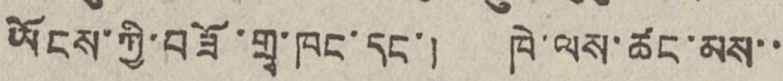ཡོངས་ཀྱི་བཟོ་གྲྭ་ཁང་དང་། ཁེ་ལས་ཚང་མས་་
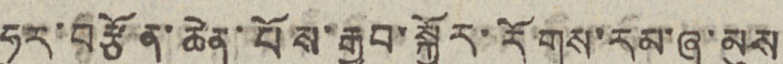ཧུར་བརྩོན་ཆེན་པོས་རྒྱབ་སྐྱོར་རོགས་རམ་ཞུ་མུས
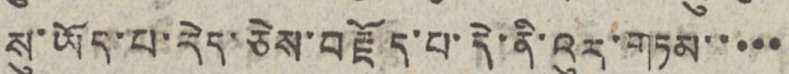སུ་ཡོད་པ་རེད་ཅེས་བརྗོད་པ་དེ་ནི་འུར་གཏམ་་་་་
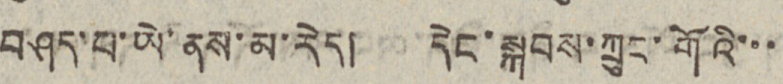བཤད་པ་ཡེ་ནས་མ་རེད། དེང་སྐབས་ཀྲུང་གོའི་་་
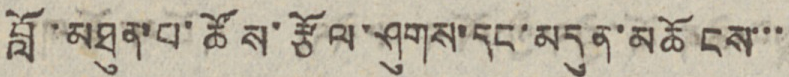བློ་མཐུན་པ་ཚོས་རྩོལ་ཤུགས་དང་མདུན་མཆོངས་་་
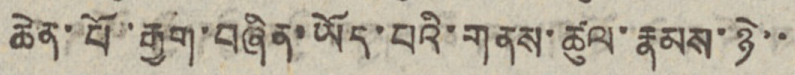ཆེན་པོ་རྒྱག་བཞིན་ཡོད་པའི་གནས་ཚུལ་རྣམས་ཉེ་་
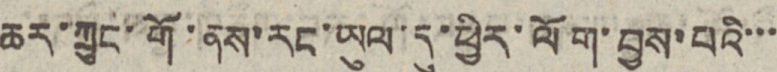ཆར་ཀྲུང་གོ་ནས་རང་ཡུལ་དུ་ཕྱིར་ལོག་བྱས་པའི་་་
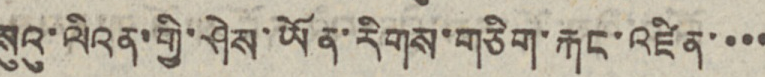སུའུ་ལིའན་གྱི་ཤེས་ཡོན་རིགས་གཅིག་རྐང་འཛིན་་་་
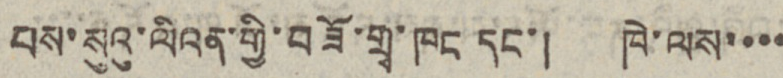པས་སུའུ་ལིའན་གྱི་བཟོ་གྲྭ་ཁང དང་། ཁེ་ལས་་་་
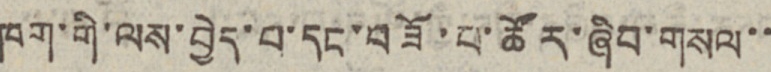ཁག་གི་ལས་བྱེད་པ་དང་བཟོ་པ་ཚོར་ཞིབ་གསལ་་
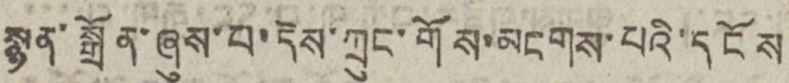སྙན་སྒྲོན་ཞུས་པ་དེས་ཀྲུང་གོས་མངགས་པའི་དངོས
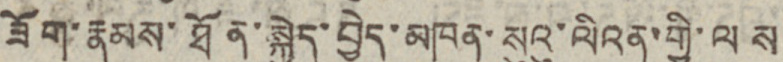ཟོག་རྣམས་ཐོན་སྐྱེད་བྱེད་མཁན་སུའུ་ལིའན་གྱི་ལས
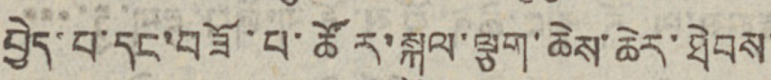བྱེད་པ་དང་བཟོ་པ་ཚོར་སྐུལ་ལྕག་ཆེས་ཆེར་ཐེབས་
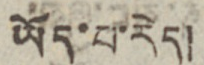ཡོད་པ་རེད།
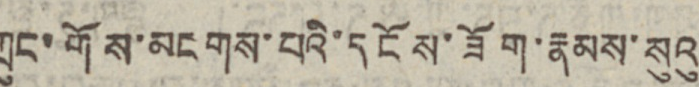ཀྲུང་གོས་མངགས་པའི་དངོས་ཟོག་རྣམས་སུའུ
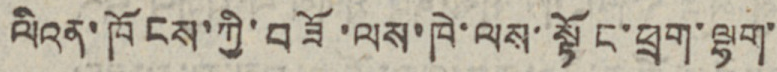ལིའན་ཁོངས་ཀྱི་བཟོ་ལས་ཁེ་ལས་སྟོང་ཕྲག་ལྷག་་
